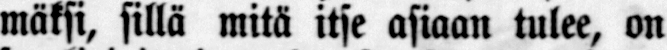mäksi, sillä mitä itse asiaan tulee, on
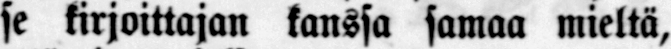se kirjoittajan kanssa samaa mieltä,
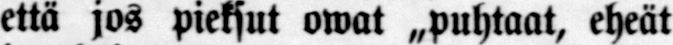että jos pieksut owat „puhtaat, eheät
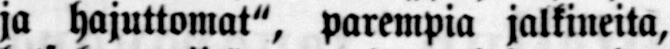ja hajuttomat", parempia jalkineita,
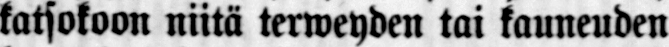katsokoon niitä terweyden tai kauneuden
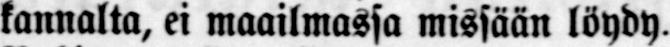kannalta, ei maailmassa missään löydy.
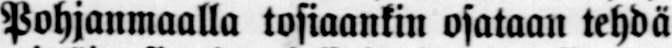Pohjanmaalla tosiaankin osataan tehdä
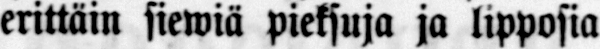erittäin siewiä pieksuja ja lipposia.
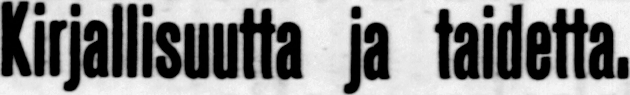Kirjallisuutta ja taidetta.
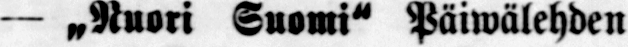— „Nuori Suomi" Päiwälehden
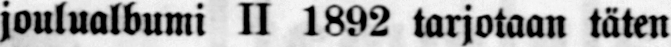joulualbumi II 1892 tarjotaan täten
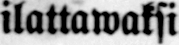ilottowaksi
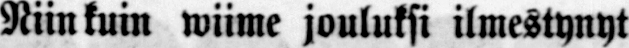Niinkuin wiime jouluksi ilmestynyt
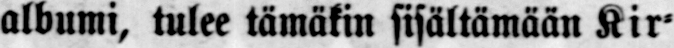albumi, tulee tämäkin sisältämään Kir-
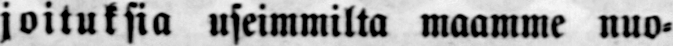joituksia useimmilta maamme nuo-
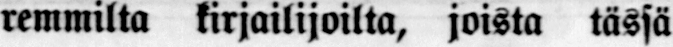remmilta kirjailijoilta, joista tässä
